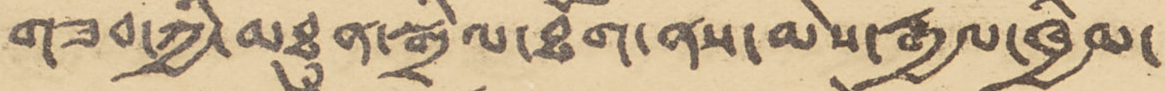གཟབ་ཀྱི་མཐུན་སྒྲིལ་ཐོག་ནས་མེས་རྒྱལ་ཁྱིམ་
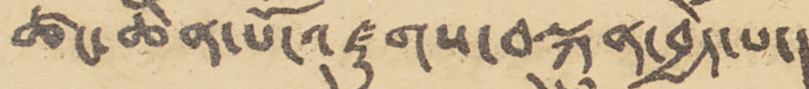ཚང་ཆེན་པོ་འཛུགས་བསྐྲུན་བྱེད་པ་།
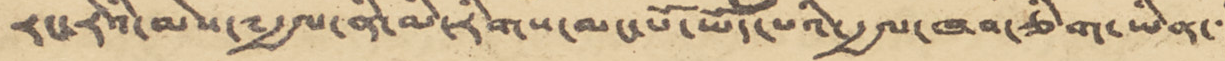རང་རེའི་མེས་༸རྒྱལ་ནི་མི་རིགས་མང་པོ་ཡོད་པའི་རྒྱལ་ཁབ་ཅིག་ཡིན་་།
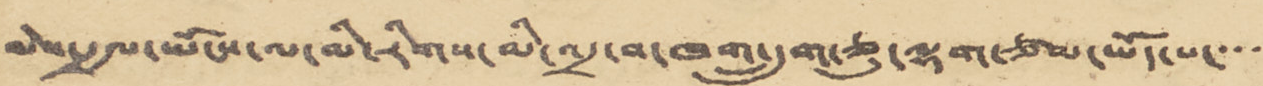མེས་རྒྱལ་ཡོངས་ལ་མི་རིགས་མི་འདྲ་བ་ཁག་དྲུག་ཅུ་ལྷག་ཙམ་ཡོད་པ་་་་་
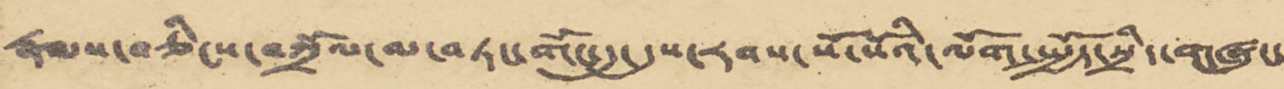རྣམས་བཅིངས་བཀྲོལ་མ་བཏང་གོང་དུ་དུས་རབས་སོ་སོའི་ལོག་སྤྱོད་སྲིད་གཞུང་
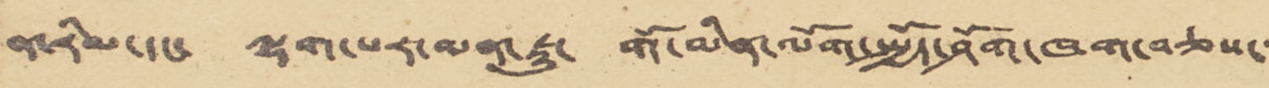ན་རིམ་དང་ ལྷག་པར་མན་ཇུ་ གོ་མིན་ལོག་སྤྱོད་ཤོག་ཁག་བཅས་་་
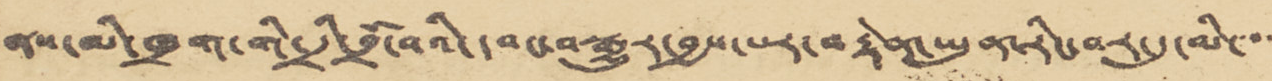ནས་མི་ཁྲག་གི་དྲི་བྲོ་བའི་དབང་བསྒྱུར་བྱས་པར་བརྟེན་ཡུན་རིང་བར་དུ་མི་་་་་
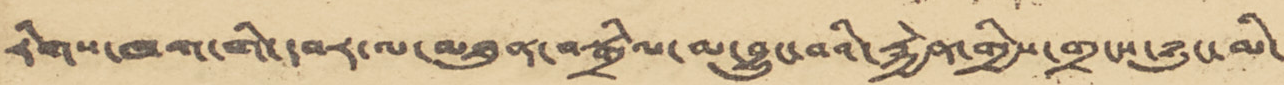རིགས་ཁག་གི་དབར་ལ་མཐུན་བསྒྲིལ་མ་བྱུང་བའི་རྐྱེན་གྱིས་གྲངས་ཉུང་མི་
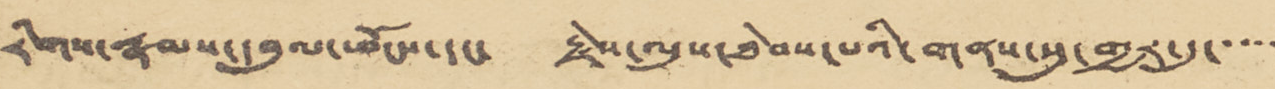རིགས་རྣམས་དབུལ་ཕོངས་དང་ རྗེས་ལུས་ཐེབས་པའི་གནས་སུ་གྱར་དུ་་་་་་
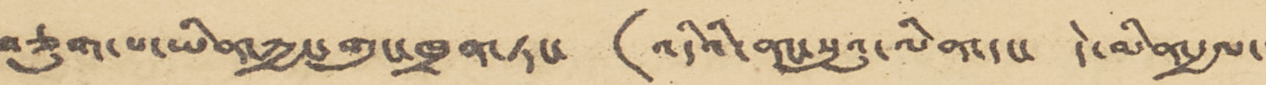བཅུག་པ་ཡིན་ཀྱང་གུང་ཁྲན་ཏང་ (འདིའི་ནང་སུའུ་ལིན་དང་ དེ་མིན་རྒྱལ་་་
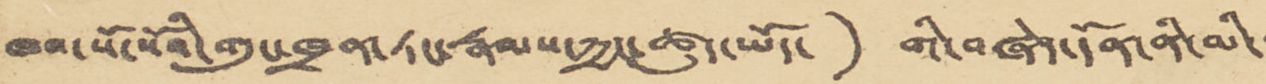ཁབ་སོ་སོའི་གུང་ཁྲན་ཏང་རྣམས་ཀྱང་ཚུད་ཡོད་) གི་བཞེད་དོན་ནི་མི་་་
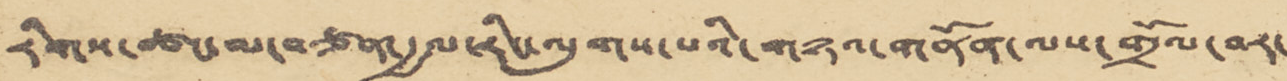རིགས་ཚང་མ་བཙན་རྒྱལ་རིང་ལུགས་པའི་གཉའ་གནོན་ལས་གྲོལ་བར་
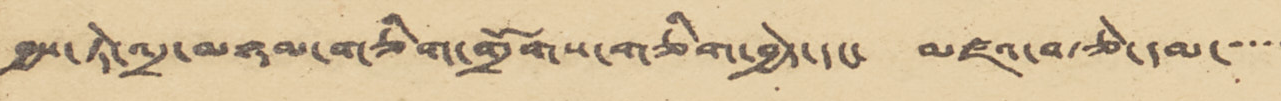བྱས་ཏེ་འདྲ་མཉམ་གཅིག་གྲོགས་གཅིག་བྱེད་དང་ མཛའ་བརྩེ་དམ་་་་་
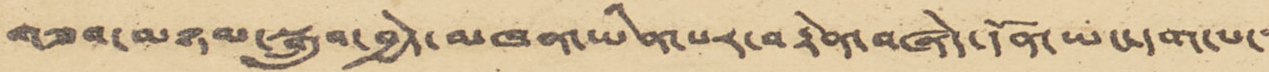གཟབ་མཉམ་སྒྲུབ་བྱེད་མཁན་ཡིན་པར་བརྟེན་བཞེད་དོན་ཡང་དག་པ་་་
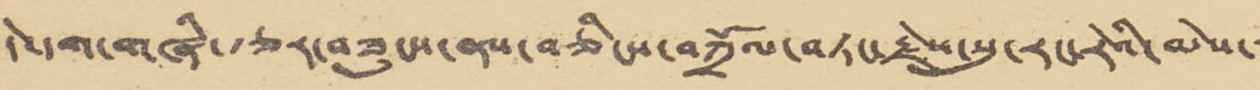དེ་དག་གཞི་རྩར་བཟུངས་ནས་བཅིངས་བཀྲོལ་བཏང་རྗེས་སུ་རང་རེའི་མེས་་་་
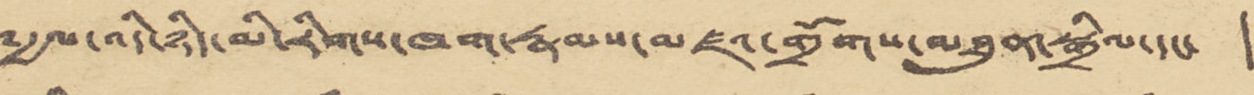༸རྒྱལ་འདི་ཉིད་མི་རིགས་ཁག་རྣམས་མཛའ་གྲོགས་མཐུན་སྒྲིལ་དང་ །
